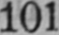101
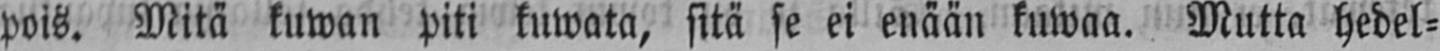pois. Mitä kuwan piti kuwata, sitä se ei enään kuwaa. Mutta hedel-
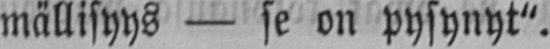mällisyys — se on pysynyt".
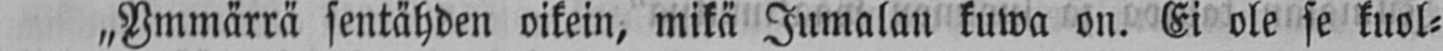„Ymmärrä sentähden oikein, mikä Jumalan kuwa on. Ei ole se kuol-
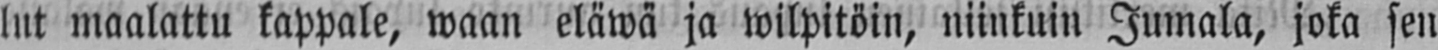lut maalattu kappale, waan eläwä ja wilpitöin, niinkuin Jumala, joka sen
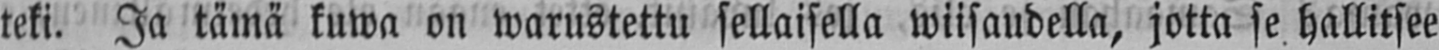teki. Ja tämä kuwa on warustettu sellaisella wiisaudella, jotta se hallitsee
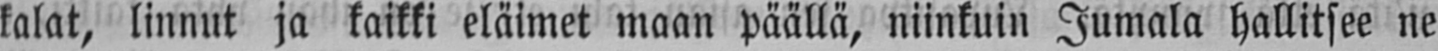kalat, linnut ja kaikki eläimet maan päällä, niinkuin Jumala hallitsee ne
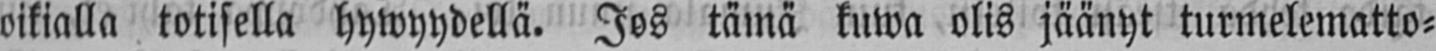oikialla totisella hywyydellä. Jos tämä kuwa olis jäänyt turmelematto-
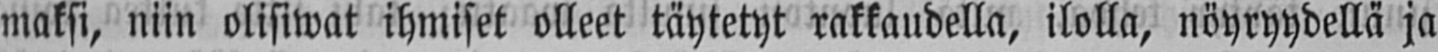maksi, niin olisiwat ihmiset olleet täytetyt rakkaudella, ilolla, nöyryydellä ja
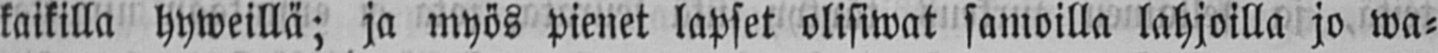kaikilla hyweillä; ja myös pienet lapset olisiwat samoilla lahjoilla jo wa-
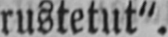rustetut".
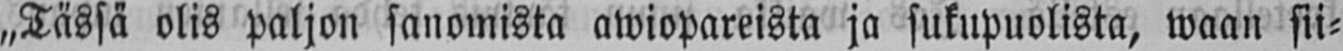„Tässä olis paljon sanomista awiopareista ja sukupuolista, waan sii-
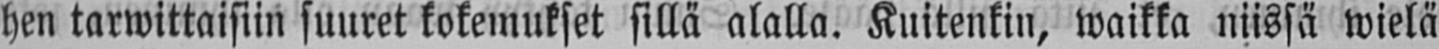hen tarwittaisiin suuret kokemukset sillä alalla. Kuitenkin, waikka niissä wielä
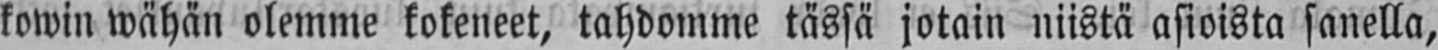kowin wähän olemme kokeneet, tahdomme tässä jotain niistä asioista sanella,
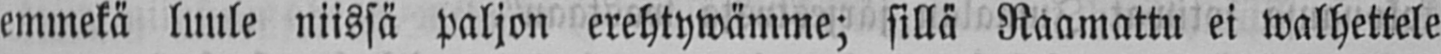emmekä luule niissä paljon erehtywämme; sillä Raamattu ei walhettele
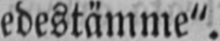edestämme".
